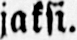jaksi.
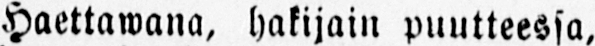Haettawana, hakijain puutteessa,
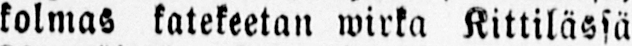kolmas katekeetan wirka Kittilässä
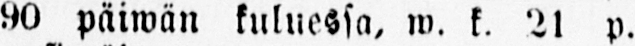90 päiwän kuluessa, w. k. 2l p.
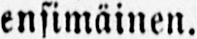ensimäinen.
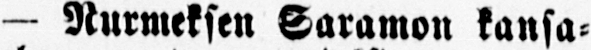— Nurmeksen Saramon kansa-
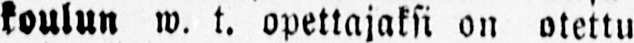koulun w. t. opettajaksi on otettu
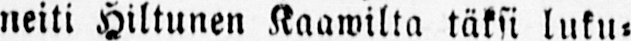neiti Hiltunen Kaawilta täksi luku-
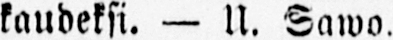kaudeksi. — U. Sawo.
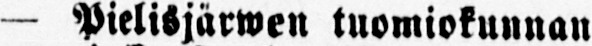— Pielisjärwen tuomiokunnan
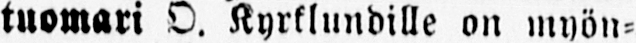tuomari O. Kyrklundille on myön-
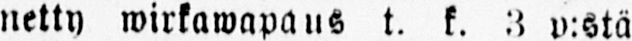netty wirkawapaus t. k. o p:stä
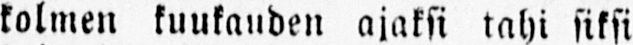kolmen kuukauden ajaksi tahi siksi
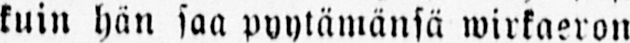kuin hän saa pyytämänsä wirkaerona
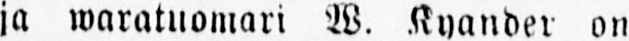ja waratuomari W. Kyander on
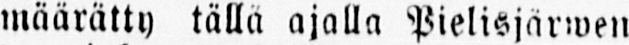määrätty tällä ajalla Pielisjärwen
